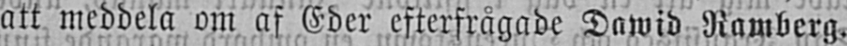att meddela om af Eder efterfrågade Dawid Ramberg.
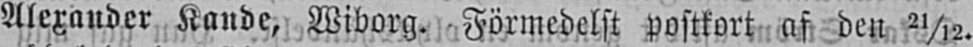Alexander Kande, Wiborg. Förmedelst postkort af den 21/12.
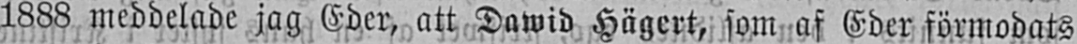1888 meddelade jag Eder, att Dawid Hägert, som af Eder förmodats
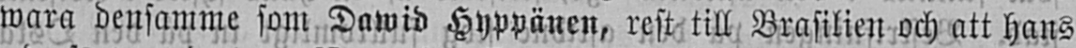wara densamme som Dawid Hyppänen, rest till Brasilien och att hans
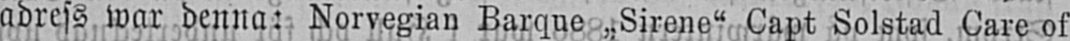adress war denna: Norvegian Barque "Sirene" Capt Solstad Care of
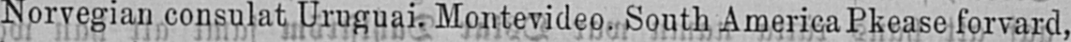Norvegian consulat Uruguai. Montevideo. South America Pkease forvard,
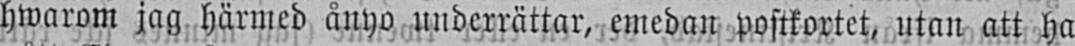hwarom jag härmed ånyo underrättar, emedan postkortet, utan att ha
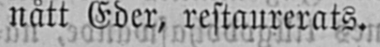nått Eder, restaurerats.
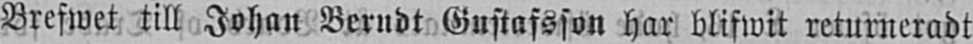Brefwet till Johan Berndt Gustafsson har blifwit returneradt
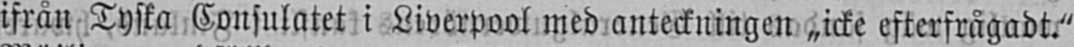ifrån Tyska Consulatet i Liverpool med anteckningen „icke efterfrågadt."
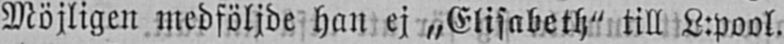Möjligen medföljde han ej »Elisabeth" till L:pool.
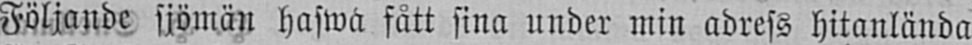Följande sjömän hafwa fått sina under min adress hitanlända
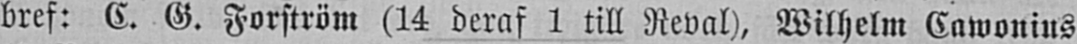bref: C. G. Forström (14 deraf 1 till Reval), Wilhelm Cawonius
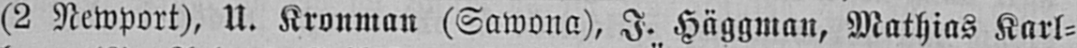(2 Newport), U. Kronman (Sawona), I. Häggman, Mathias Karl-
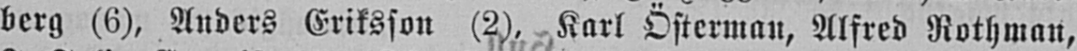berg (6), Anders Eriksson (2), Karl Österman, Alfred Rothman,
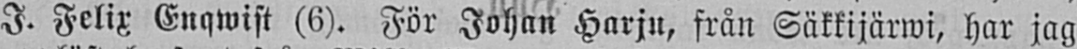I. Felix Enqwist (6). För Johan Harju, från Säkkijärwi, har jag
